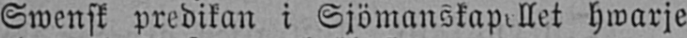Swensk predikan i Sjömanskapellet hwarje
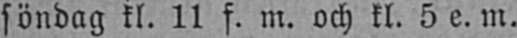söndag kl. 11 f. m. och kl. 5 e. m.
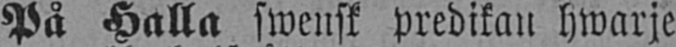På Halla swensk predikan hwarje
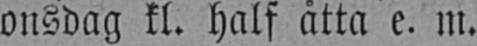onsdag kl. half åtta e. m.
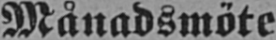Månadsmöte
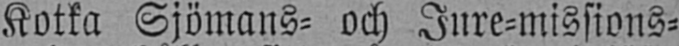Kotka Sjömans- och Inre-missions-
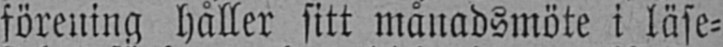förening håller sitt månadsmöte i läse-
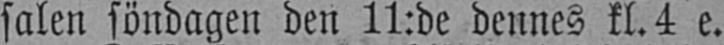salen söndagen den 11:de dennes kl. 4 e.
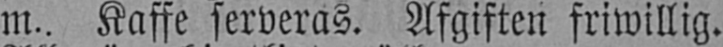m.. Kaffe serveras. Afgiften friwillig.
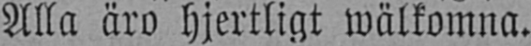Alla äro hjertligt wälkomna.
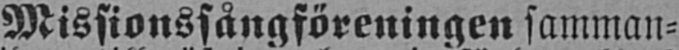Missionssångföreningen samman-
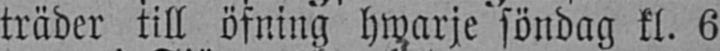träder till öfning hwarje söndag kl. 6
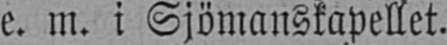e. m. i Sjömanskapellet.
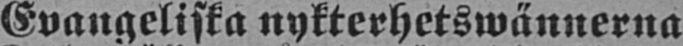Evangeliska nykterhetswännerna
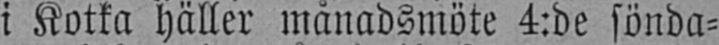i Kotka häller månadsmöte 4:de sönda-
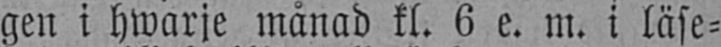gen i hwarje månad kl. 6 e. m. i läse-
